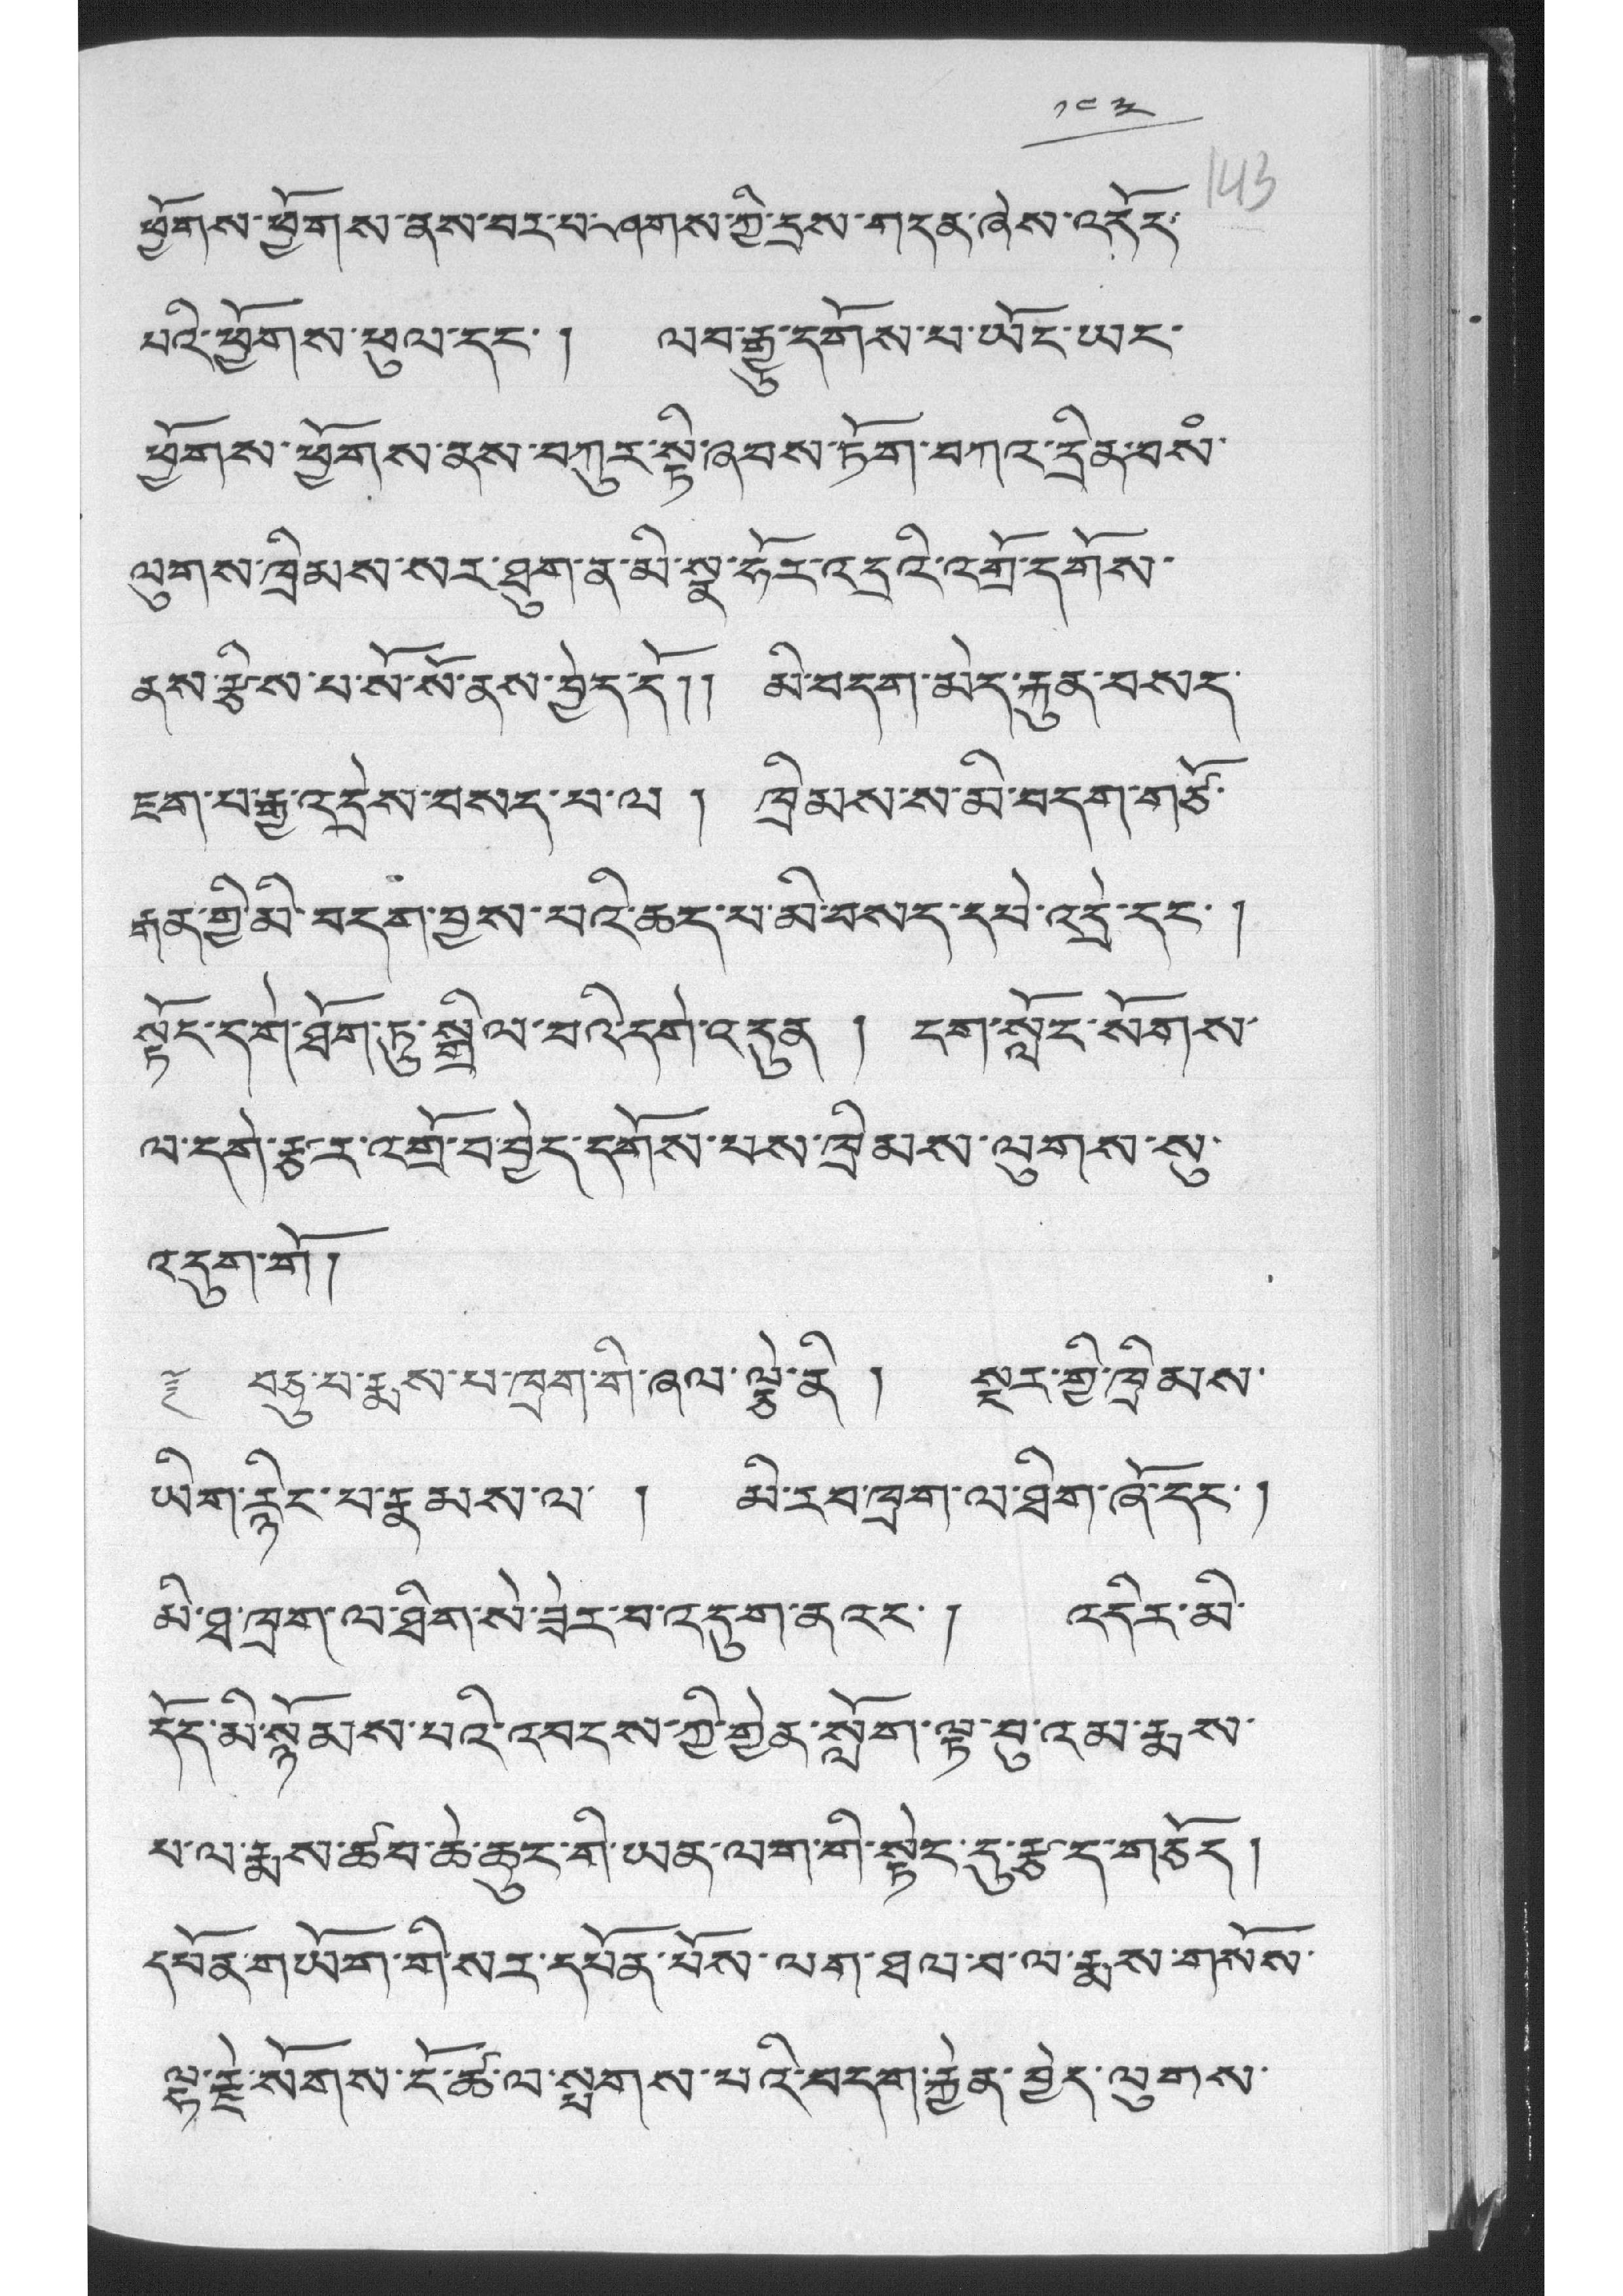༡༤༣
ཕྱོགས་ཕྱོགས་ནས་བར་པ་ཤགས་ཀྱི་དྲས་གདན་ཞེས་འདོད་
པའི་ཕྱོགས་ཕུལ་དང་། ལབ་རྒྱུ་དགོས་པ་ཡོང་ཡང་
ཕྱོགས་ཕྱོགས་ནས་བཀུར་སྟི་ཞབས་ཏོག་བཀའ་དྲིན་བསཾ་
ལུགས་ཁྲིམས་སར་ཐུག་ན་མི་སྣ་ཧོར་འདྲའི་འགྲོ་དགོས་
ནས་རྩིས་པ་སོ་སོ་ནས་བྱེད་དོ།། མི་བདག་མེད་རྐུན་བསད་
ཇག་པ་རྒྱ་འདྲེས་བསད་པ་ལ ། ཁྲིམས་ས་མི་བདག་གཙོ་
རྒན་གྱི་མི་བདག་བྱས་པའི་ཆད་པ་མི་བསད་དཔེ་འདྲེ་དང་ །
སྟོང་དགེ་ཐོག་ཏུ་སྒྲིལ་བའི་དགེ་འདུན ། ངག་སློང་སོགས་
ལ་དགེ་རྩར་འགྲོ་བ་བྱེད་དགོས་པས་ཁྲིམས་ལུགས་སུ་
འདུག་གོ།
༈ བཅུ་པ་རྨས་པ་ཁྲག་གི་ཞལ་ལྕེ་ནི ། སྔར་གྱི་ཁྲིམས་
ཡིག་རྙིང་པ་རྣམས་ལ་ ། མི་རབ་ཁྲག་ལ་ཐིག་ཞོ་དང་།
མི་ཐ་ཁྲག་ལ་ཐིག་སེ་ཟེར་བ་འདུག་ནའང་། འདིར་མི་
དོད་མི་སྙོམས་པའི་འབངས་ཀྱི་གྱེན་སློག་ལྟ་བུ་འམ་རྨས་
པ་ལ་རྨས་ཚབ་ཆེ་ཆུང་གི་ཡིན་ལག་གི་སྟེང་དུ་རྩད་གཅོད།
དཔོན་གཡོག་གི་སར་དཔོན་པོས་ལག་ཐལ་བ་ལ་རྨས་གསོས་
ལྷ་རྗེ་སོགས་ངོ་ཚ་ལ་སྤགས་པའི་བདག་རྐྱེན་བྱེད་ལུགས་
